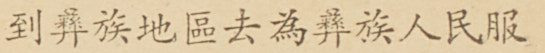到彝族地區去為彝族人民服
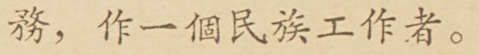務，作一個民族工作者。
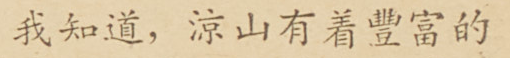我知道，涼山有着豐富的
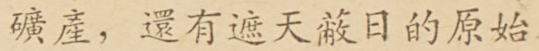礦產，還有遮天蔽日的原始
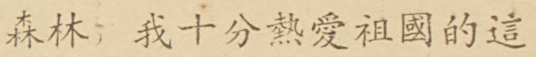森林，我十分熱愛祖國的這
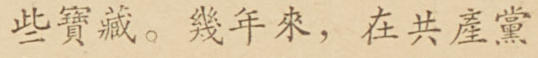些寶藏。幾年來，在共產黨
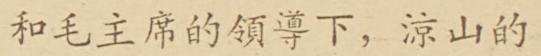和毛主席的領導下，涼山的
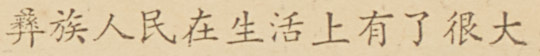彝族人民在生活上有了很大
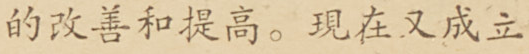的改善和提高。現在又成立
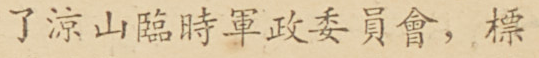了涼山臨時軍政委員會，標
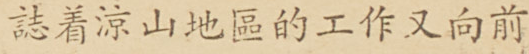誌着涼山地區的工作又向前
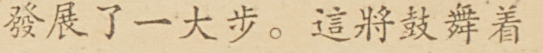發展了一大步。這將鼓舞着
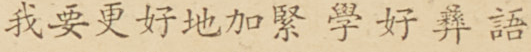我要更好地加緊學好彝語
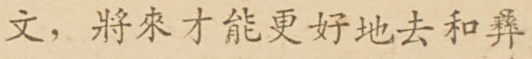文，將來才能更好地去和彝
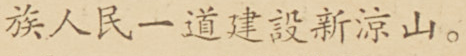族人民一道建設新涼山。
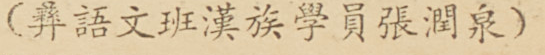（彝語文班漢族學員張潤泉）
